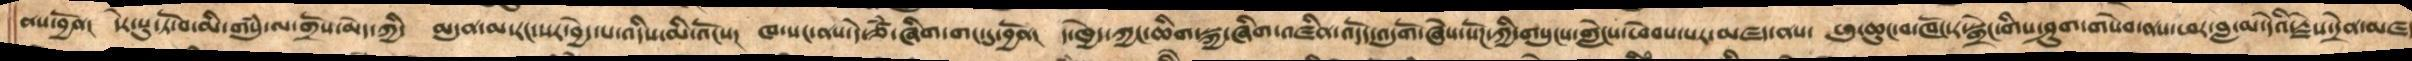ནས་བྱོན།  དེར་པུ་ཏོ་བ་མི་གསུཾ་ལ་གྲོས་མེད་ཀྱི།  མདུན་མ་རང་སར་བྱེད་པ་འདིས་མི་འོངས།  ཁ་སང་ནས་དེ་ཙཾ་ཞིག་གང་དུ་བྱོན།  ད་ཁྱེད་ཀྱང་ཆིག་སྐྱ་ཞིག་འཛིན་འདོད་འདུགོ་ཞེས་སོཌ་ཀྱི་གསུངས་གླེང་ཕེབས་པར་མཛད་ནས།  ཕུ་ཆུང་བ་ཁོང་ར་སྒྲེང་གིས་ཤུག་གསེབ་ནས་ཕར་བླ་མ་དེའི་རྗེས་དྲེན་མཛད་
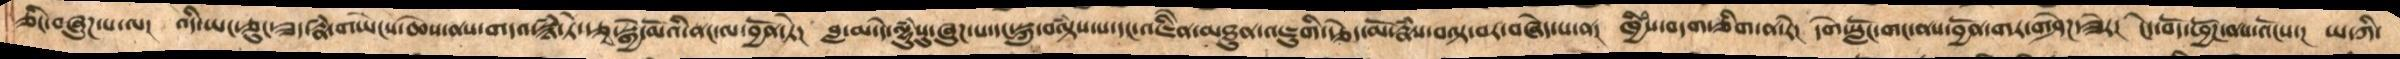ཅིང་བཞུཌ་པ་ལ།  འདི་ཡང་ཅུང་ཟད་རྣཾ་གཡེངས་ཆེས་ནས་གདའ་སྙཾ་ཏེ་རྩྭ་སྒྱེ་མོའི་ནང་ལ་བྱོན་ཏེ།  བླ་མ་དེ་ལྷུཾསུ་ཞུཌ་པ་དང་སྐུ་བལྟཾས་པ་དང་འཇིེན་མཐུན་འཇུགི་རྩེད་མོ་རྣཾས་བལྟ་བར་བཞེད་པ་ན།  ཁྱིཾས་བདག་ཅིག་ན་རེ།  དགེ་སློང་གང་ནས་བྱོན་གར་གཤེཌ་ཟེར།  ངེད་བོད་ཕྱོཌ་ནས་འོངས།  ཡ་ཀི་
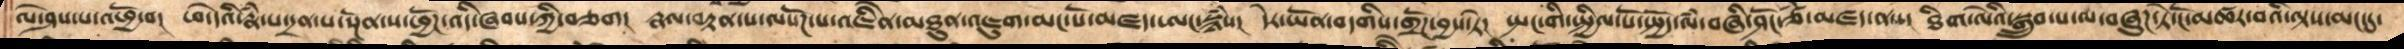ལ་ཤེས་པ་འཕྱོ་བ།  ཕ་དེའི་རྣཾ་པ་དྲན་པ་སྔོན་ས་ཕྱོཌ་འདི་ཞབས་ཀྱི་བཅག།  རྣལ་བསྟན་པ་ལ་སོཌ་པ་འཇིེན་མཐུན་འཇུག་མང་པོ་མཛད་ཨང་སྙཾས།  དེེར་ཡོན་བདགིས་གྲོཌ་བྱས་ཏེ།  སྤང་གི་སྤྱིལ་པོ་སྤྱོད་ལཾ་བཞི་ཤོང་ཙཾ་མཛད་ནས།  ཐིག་ལེའི་སྒྲུབ་པ་ལ་བཞུཌ་ཏེ་ངོ་མཚར་བའི་ལྟས་མང་དུ་
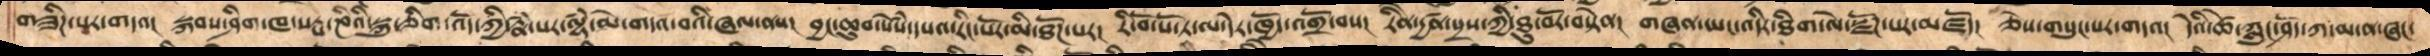གཟིཌ་པར་གདའ།  སྐབས་ཤིག་ཁ་སརྤ་ཎིའི་སྐུ་ཅིག་འོད་ཀྱི་རྣཾ་པར་ལྷཾ་མེ་གདའ་ཞལ་ནས།  བྱང་ཆུབ་སེཾས་དཔའ་རིང་པོར་མི་ཐོཌ་པར།  རི་བོ་པོ་ཏ་ལ་དེར་ཁྱོད་འགྲོ་བས།  རིེན་དྱཚན་སྲས་ཀྱི་ཐུ་བོར་བསྟེན།  གཞན་ཡང་འདིར་ཐིག་ལེ་སྫོཌ་པར་མཛོད།  ཅེས་གསུང་པར་གདའ།  དེའི་ཚེ་ཀླུང་ཤོད་ཀ་མ་ན་ཞང་
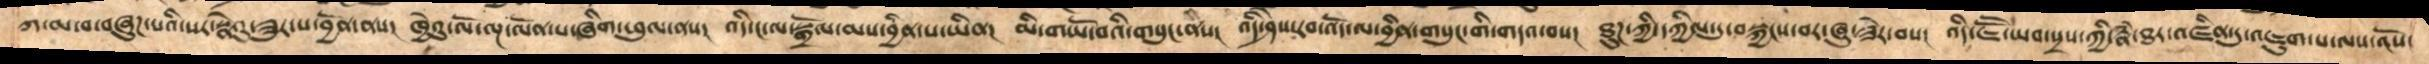ཀ་མ་བ་བཞུཌ་པའི་སར་སྣེའུ་ཟུར་པ་བྱོན་ནས།  ཁྱེའུ་ལོ་ལྔ་ལོན་པ་ཞིག་ཕུལ་ནས།  འདི་ང་ལ་སྒྲོལ་མས་བྱིན་པ་ཡིན།  མི་གཡོ་བའི་གསུང་ནས།  འདི་ཤེས་རབ་འོད་ལ་བྱིན་གསུང་གི་གདའ་བས།  ཐུཌ་ཀྱི་དཀྱིལ་དུ་བསྐྱངས་བར་ཞུ་ཟེར་བས།  འདི་ཇཽ་ཡབ་སྲས་ཀྱི་རྣཾ་ཐར་འཛིན་དུ་འཇུག་པ་ལས་འོས་
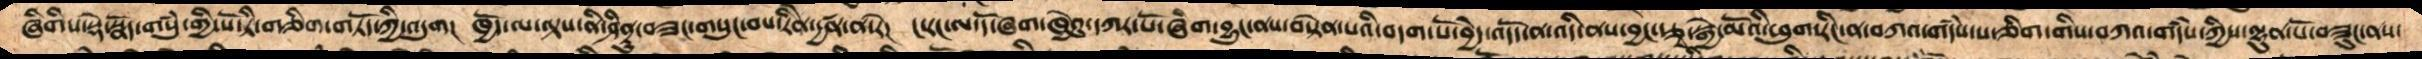ཞིགིས་སྡེ་སྣོད་གསུཾ་གྱི་པོ་ཏི་གཅིག་གཏོད་ཀྱི་འདུག།  ཁྱོད་ལ་ལྟས་ནི་ཤིནྟུ་བཟང་གསུང་བས་རིནེ་དྱཚན་ན་རེ།  ང་རང་ལ་དོ་ཞག་ཁྱེའུ་དཀར་པོ་ཞིག་བྱུང་ནས་བསྟེན་པའི་བདག་པོ་བྱེད་འདོད་ན་འདི་ནས་བྱང་རྩྭ་སྒྱེ་མོའི་ཕུག་རིང་ན་བཀའ་གདཾས་པ་ཅིག་གིས་བཀའ་གདཾས་ཀྱིས་ལྷུན་པོ་བཟུང་ནས་
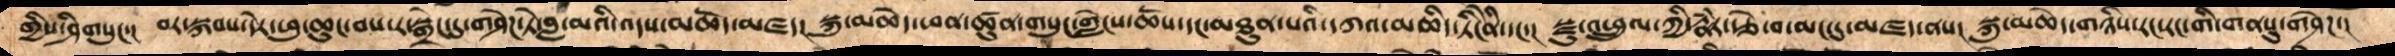གྱིས་ཤིགསུངས།  བར་སྐབས་དེར་ཕུ་ཆུང་བས་ར་སྒྲེང་དུ་གཤེཌ་ཏེ་བླ་མའི་འདས་མཆོད་མཛད།  སྐུ་མཆེད་ཕན་ཚུན་གསུང་གླེངས་ཆོས་དང་མཐུན་པའི་བཀའ་མཆིད་ཏིངེིན་དང་། སྫུ་འཕྲུལ་ཀྱི་རྣཾར་རྩེ་བ་མང་དུ་མཛད་ནས།  སྐུ་མཆེད་གཉིས་རང་རང་གི་གནས་སུ་གཤེཌ་།
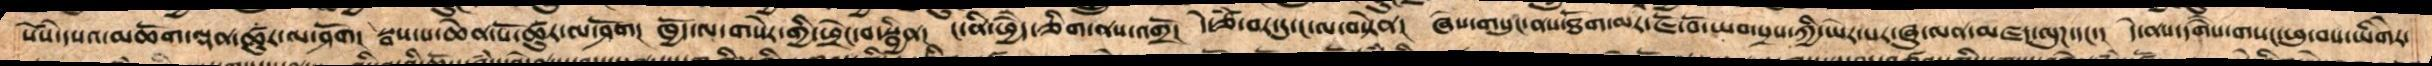སེཾས་དཔའ་མཆོག་ལྡན་ཚུར་ལ་ཤོག  སྦས་པ་ཆེན་པོ་ཚུར་ལ་ཤོག།  ཁྱོད་ལ་གསེར་གྱི་ཕྲེང་བ་སྦྱིན།  ད་ནི་ཕྱཻད་ཅིག་ནས་འགྲོ།  དེ་ཙཾ་བར་དུ་ང་ལ་བསྟེན།  ཞེས་གསུང་ནས་ཐོག་མར་ཇོ་བོ་ཡབ་སྲས་ཀྱིས་ཡེར་པར་ཞུ་ལན་མཛད་ལུཌ་དང་།  དེ་ནས་དགཻས་གསང་ཕུ་བས་ཡིགེར་
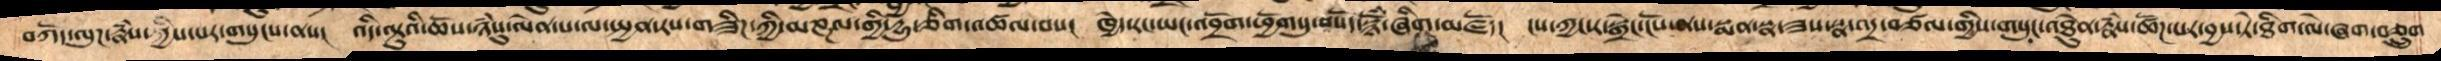བཀོད་ལུཌ་རྣཾས་ཀྱིས་པར་གསུངས་ནས།  འདི་ལྟུའི་ཆོས་ཉཾསུ་ལེན་པ་ལ་སྤྱན་རས་གཟིཌ་ཀྱི་མཎྜལ་གྱི་དྱུ་ཅིག་འཚལ་བས།  ཁྱེད་རང་ཡང་འབྲོག་ཕྱོགསུ་བསོད་སྙོཾ་ཞིག་མཛོད།  ངས་ཀྱང་ར་སྒྲེང་ངོས་ནས་སྨན་སྣ་ཟས་སྣ་འདྲ་བཙལ་གྱིས་གསུང་འཐེུན་རྣཾས་ཚོཌ་པར་བྱས་ཏེ་ཐིག་ལེ་ཞག་བཅྲུག
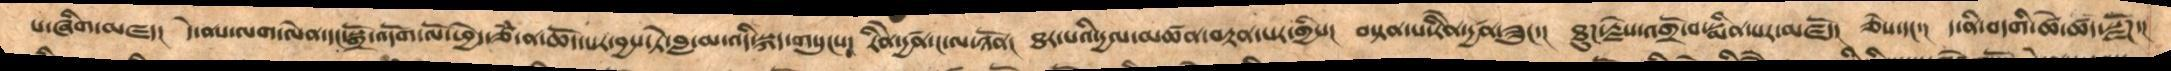པ་ཞིག་མཛད།  དེ་ནས་ལག་ལེན་དང་སྒྲོ་འདོག་ལོ་ཕྱེད་ཙཾ་ན་ཆོད་པར་བྱས་ཏེ་བླ་མ་འདི་སྐད་གསུངས།  རིནེ་དྱཚན་ང་ལ་ཉོན།  ཐར་པའི་དྱལ་མཚན་བརྟན་པར་གྱིས།  བསྟན་པ་རིནེ་་དྱཚན་ཟུང་།  ཐུཌ་རྗེས་འགྲོ་བ་སྨིན་པར་མཛོད།  ཅེས་དང་།  ད་ནི་བདགི་ཚེ་ཚད་སྫོཌ་།
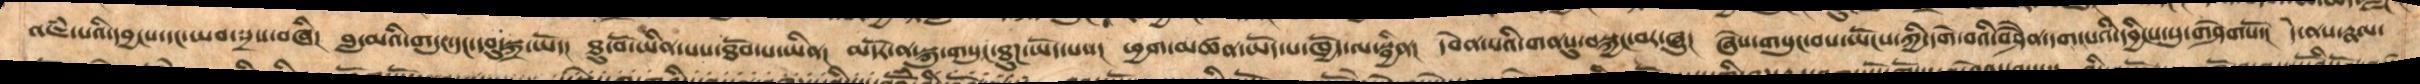འཇཾ་པའི་དབྱངས་དང་ཡབ་སྲས་བཞི།  བླ་མའི་གདུང་དང་དབུ་སྐྲ་ཡོད།  ཐུ་བོ་ཡིན་པས་ཐོབ་པ་ཡིན།  མདོར་ན་སྐུ་གསུང་ཐུཌ་ཡོད་པས།  ཕྱག་མཚན་ཡོད་པ་ཁྱོད་ལ་སྦྱིན། དབེན་པའི་གནསུ་བསྐྱང་བར་ཞུ།  ཞེས་གསུང་བས་ཡོངས་ཀྱི་དགེ་བའི་བཤཻན་དག་པའི་དབྱིངས་སུ་གཤེགསོ་།  དེ་ནས་རྣལ་
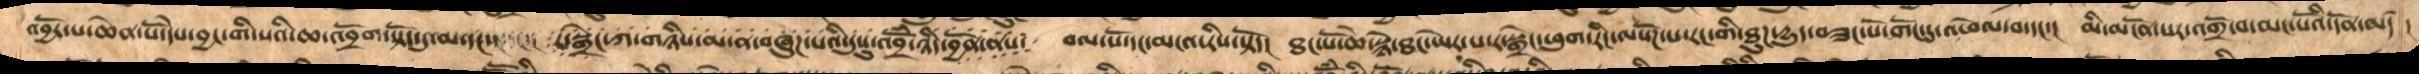འབྱོར་པ་ཆེན་པོ་དེས་བྱང་གི་སའི་ཆ་འབྲོག་སྟོད་དུ་མ་དང་  ར་སྒྲེང་ཀ་གཉིས་མ་ན་བཞུཌ་པའི་དུསུ་འབྲོཾ་ཉིད་བྱོན་ནས།  བལ་པོ་དང་མངའ་རིས་སྟོད།  ཐང་པོ་ཆེ་སྙེ་ཐང་ཡེར་པ་ར་སྒྲེང་ཕུག་རིང་ལསོཌ་པ་རང་གི་ཐུཌ་དྱུད་བཟང་པོ་གོང་དུ་འཕེལ་བ་དང་།  མི་མངོན་པར་འགྲོ་བ་མང་པོའི་དོན་མཛད།
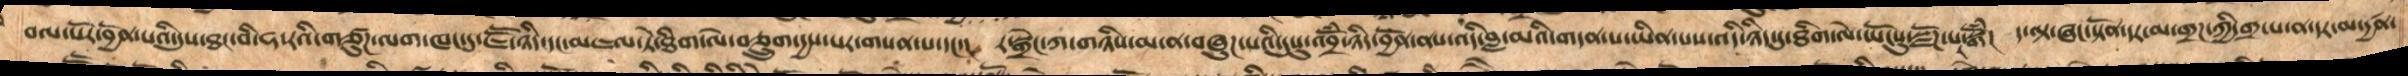བལ་པོར་བྱོན་པའི་དུས་ཐང་བི་ཧ་རའི་གཙུཌ་ལག་ཁང་དུ་ཇཽ་ཉིད་དང་མཇལ་ཏེ་ཐིག་ལེ་བཅྲུག་དྱས་པར་གསན་པ་དང་། ར་སྒྲེང་ཀ་གཉིས་མ་ན་བཞུཌ་པའི་དུསུ་འབྲོཾ་ཉིད་བྱོན་ནས་འདི་བླ་མའི་གདན་ས་ཡིན་པས་འདི་ཉིད་དུ་ཐིག་ལེ་ཡོངསུ་སྫོཌ་པར་སྒོཾ། ད་ལྟ་ཞང་སྟོན་དར་མ་གྲཌ་ཀྱི་གྲ་ས་ན་དར་མ་དྱཚན་
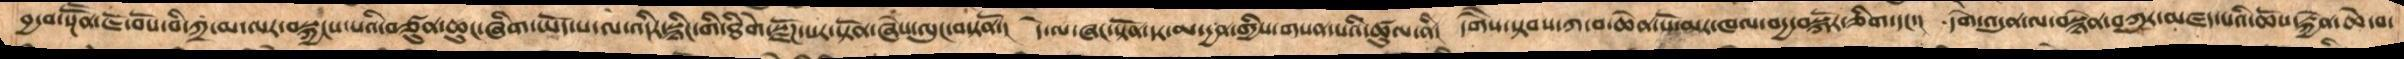བྱ་བ་སྔཽན་ཇོ་བོས་བི་ཀྲ་མ་ལར་བསྐྱངས་པའི་བཙུན་ཆུང་ཞིག་ཡོད་པ་ལ་འདིར་སྙིང་གི་ཐིགེ་སྫོཌ་པར་སྟོན་ཞེས་ལུང་བསྟནོ་།  དེ་ལ་ཞང་སྟོན་དར་མ་དྱཚན་གྱིས་གསན་པའི་ཚུལ་ནི།  དགཻས་སྟབས་ཀ་བ་ཆེན་པོ་མར་ཁལ་བདྱ་བསྐོར་ཅིག་དང་།  དགེ་འདུན་ལ་བསྙེན་བཀུར་མཛད་པའི་ཆོས་རྐྱེན་ཆེ་བ་
